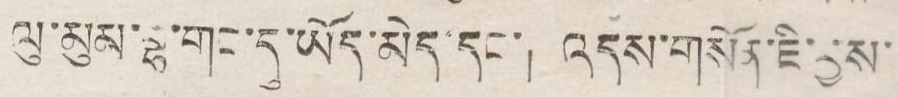ལུ་མུམ་བྷ་གང་དུ་ཡོད་མེད་དང་། འདས་གསོན་ཇི་བྱས་
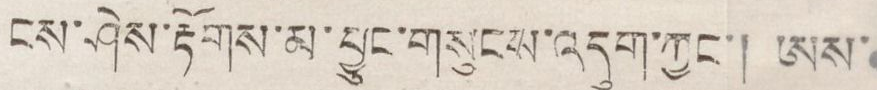ངས་ཤེས་རྟོགས་མ་བྱུང་གསུངས་འདུག་ཀྱང་། ཨས་
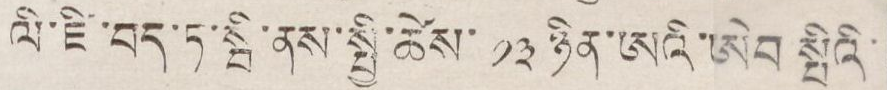ལི་ཛི་བད་ཏ་སྦི་ནས་སྤྱི་ཚེས་ ༡༣ ཉིན་ཨའི་ཨེབ་སྤིའི་
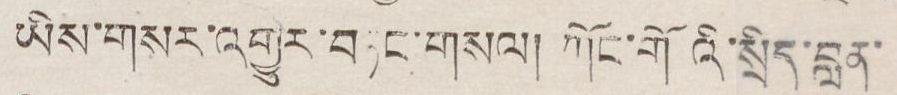ཡིས་གསར་འགྱུར་བཏང་གསལ། ཀོང་གོའི་སྲིད་བླན་
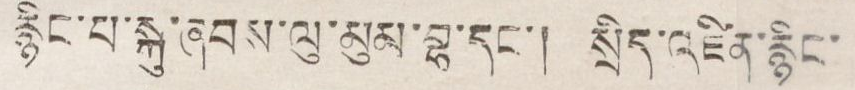རྙིང་པ་སྐུ་ཞབས་ལུ་མུམ་བྷ་དང་། སྲིད་འཛིན་རྙིང་
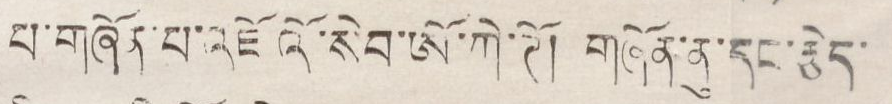པ་གཞོན་པ་འཇོའོ་སེབ་ཨོ་ཀེ་ཊོ། གཞོན་ནུ་དང་རྩེད་
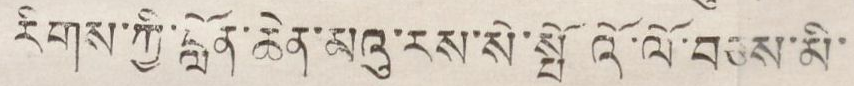རིགས་ཀྱི་བློན་ཆེན་མའུ་རས་སེ་སྤོའོ་ལོ་བཅས་མི་
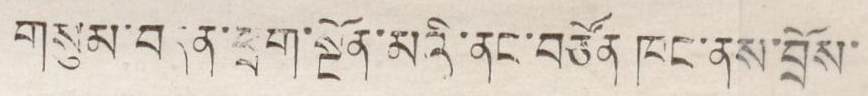གསུམ་བདུན་ཕྲག་སྔོན་མའི་ནང་བཙོན ཁང་ནས་བྲོས་
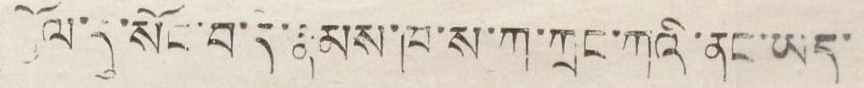བྱོལ་དུ་སོང་བ་དེ་རྣམས་ཁ་ས་ཀ་ཀྲང་ཀའི་ནང་ཡད་
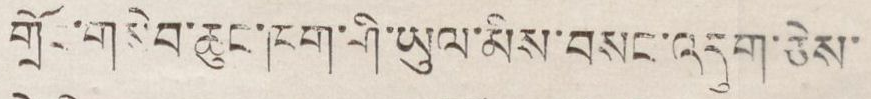གྲོང་གསེབ་ཆུང་ཁག་གི་ཡུལ་མིས་བསང་འདུག་ཅེས་
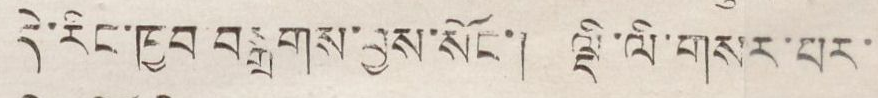དེ་རིང་ཁྱབ བསྒྲགས་བྱས་སོང་། ལྡི་ལི་གསར་པར་
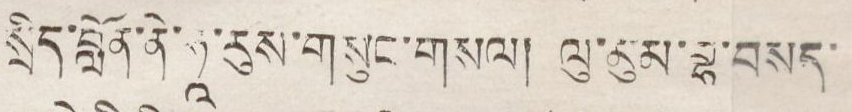སྲིད་བློན་ནེ་ཧཱ་རུས་གསུང་གསལ། ལུ་མུམ་བྷ་བསད་
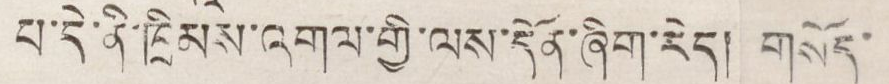པ་དེ་ནི་ཁྲིམས་འགལ་གྱི་ལས་དོན་ཞིག་རེད། གསོད་
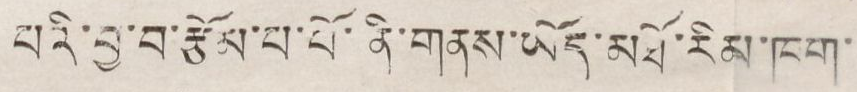པའི་བྱ་བ་རྩོམ་པ་པོ་ནུ་གནས་ཡོད་མཐོ་རིམ་ཁག་
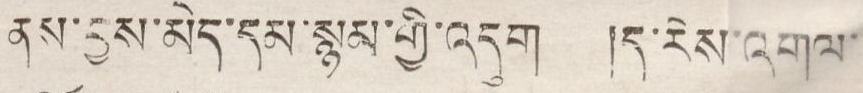ནས་བྱས་མེད་དམ་སྙམ་གྱི་འདུག །ད་རེས་འགལ་
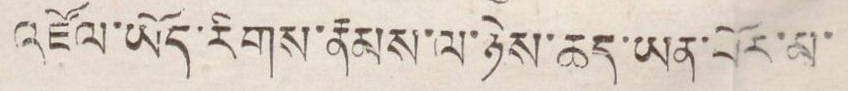འཛོལ་ཡོད་རིགས་རྣམས་ལ་ཉེས་ཆད་ཡན་པོར་མ་
